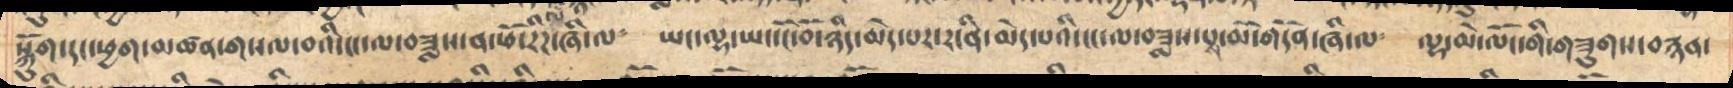སྐོུག་དང་ཕྱག་མཚན་གསལ་བའི་ངང་ལ་བཟླས་ན་ཕོ་རིཌ་ཞི་ལ༴   ཡང་ལྷ་ཡང་ངོ་བོ་ཉིད་མེད་པར་རངིན་མེད་པའི་ངང་ལ་བཟླས་པས་མོ་གདོན་ཞི་ལ༴   ལྷ་མེད་ལོང་གི་གཟུགས་བསྙན་
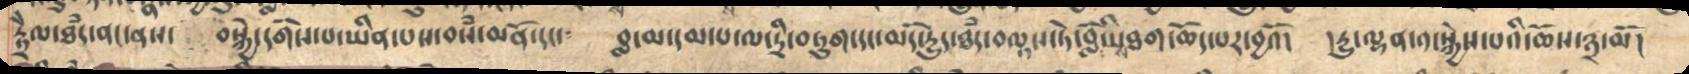རྟྲེལ་ཐཾད་ནང་ནས་   བསྐྱེ་དགོས་པ་ཡིན་པས་བསཾ་མནོ་དང༴   བླ་མ་དམ་པ་ལ་དྲི་བཏུག་དང་མདོ་དྱུད་ཐཾད་བལྟས་ཏེ་བློའིས་ཐག་ཆོད་པར་བྱའོ།   །དྱུ་ལྷན་༡་སྐྱེས་པའི་ཆོས་༣་མོ།
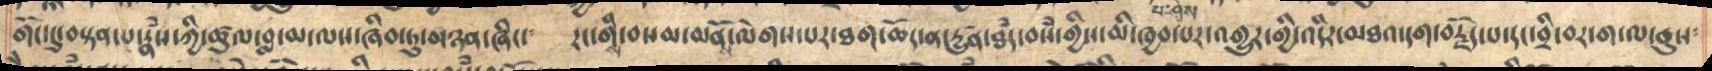གོང་དུ་བསྟན་པ་རྣཾས་ཀྱི་ཚུལ་བླ་མ་ལས་ཞིབ་ཏུ་མཉན་ཞིང་  རང་གིས་བསམ་མནོ་ལེགས་པར་ཐག་ཆོད་ན་དྱུན་ཐཾད་བསཾ་གྱིས་མི་ཁྱབ་པར་འགྱུར་གི་འདིར་མཐའ་དག་བརྗོད་པ་དང་བྲི་བར་ག་ལ་ནུས༴
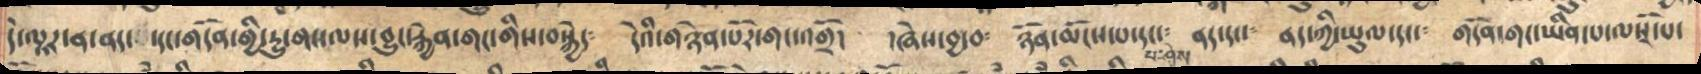དེ་ལྟར་ན་ནད་པ་དང་གདོན་གྱི་དྱུ་གསལས་བྱུང་རྐྱེན་གང་གིས་བསྐྱེད༴   དེའི་གཉེན་པོར་གང་འགྲོ།   །ཞེས་བྱ༴   ཉོན་མོངས་པ་དང་༴   ནད་དང་  ནད་ཀྱི་ཡུལ་དང་  གདོན་གང་ཡིན་པ་ལསྭོ་པ་
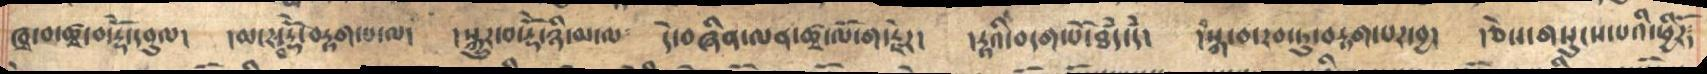ཁྭ་བ་ཚྭ་བ་རྡོེ་དབུལ། །མངར་རྡོེ་བརྟག་པ་ལ། །སྐྱུར་བ་རྡོེ་ཉི་མ་ལ༴ དེ་བཞིན་ལན་ཚྭ་ལོ་ག་རྗེར། །རྟའི་བདག་པོ་ཐཾད་དཾ། །སྒ་བ་རབ་ཏུ་བརྟག་པར་བྱ། །ཅེས་གསུངས་པའི་ཕྱིརོ༴
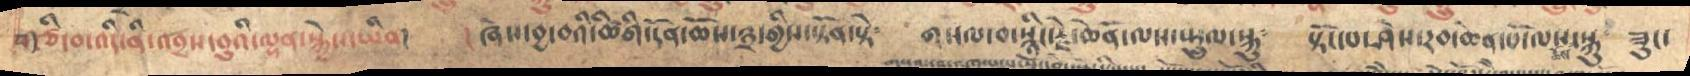གཙི་བ་འདི་ནི་འབྲས་བུའི་ལྷན་སྐྱེས་ཡིན།  །ཞེས་བྱ་བའི་ཚིགི་དོན་ཆོས་༣་གྱིས་སྟོན་སྟེ   གསལ་བ་སྙིང་རྗེ་ཆེནོ་ལས་སྤྲུལ་སྐུ   སྟོང་པ་ཤེས་རབ་ཆེན་པོ་ལས་ཆོས་སྐུ  ཟུང་
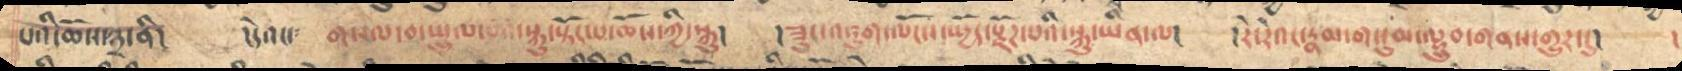པའི་ཆོས་༣་ནི། །དེའང་༴ གསལ་བ་སྤྲུལ་པའི་སྐུ་སྟོང་པ་ཆོས་ཀྱི་སྐུ། །ཟུང་འཇུག་ལོངས་སྤྱོད་སྫོཌ་པའི་སྐུ་ཡིན་ལ། །རེ་རེའང་རྣམ་གསུམ་ལྷྲུབ་གནས་གྱུར་དུ། །
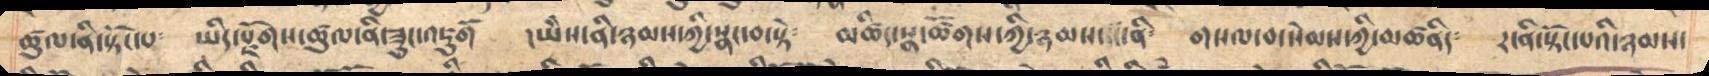ཚུལ་ནི་སྟོང་པ ཡིད་སྫོགས་ཚུལ་ནི་ཟུང་འཇུགོ །ཡཻས་ནི་ཉམས་ཀྱི་སྣང་བ་སྟེ༴ མཚིད་སྣ་ཚོགས་ཀྱི་ཉམས་དང་ནི༴ གསལ་བ་སེམས་ཀྱི་མཚནི།༴ ར་ནི་སྟོང་པའི་ཉམས་
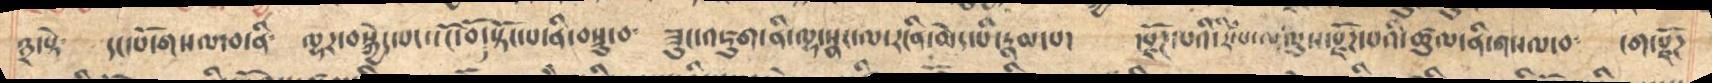༣་སྟེ༴ དང་པོ་གསལ་བ་ནི༴ ལྷར་བསྐྱེད་པ་ངོ་བོ་སྟོང་པ་ནི་བསྡུ་བ༴ ཟུང་འཇུག་ནི་ལྷ་སྣང་ལ་རངནི་མེད་པའི་རྣམ་པ། །སྫོཌ་པའི་རིཾ་པ་ལ་ལུས་སྫོཌ་པའི་ཚུལ་ནི་གསལ་བ༴ །ག་སྫོཌ
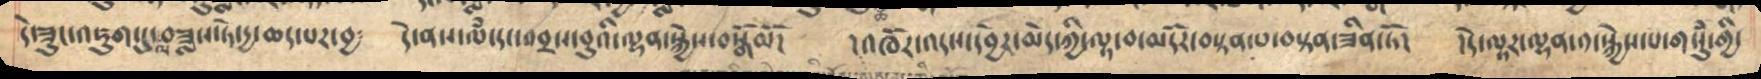དེ་ཟུང་འཇུག་དུ་ལ་བཟླས་ཏེ་དྱ་ཆད་པར་བྱ༴   དེ་ནས་ལཾ་དང་འབྲས་བུའི་ལྷན་སྐྱེས་བསྒོམོ།   །འཁོར་འདས་དབྱེར་མེད་ཀྱི་ལྟ་བ་མདོར་བསྟན་པ་བསྟན་ཟིན་ཏོ།   །དེ་ལྟར་ལྷན་༡་སྐྱེས་པ་གསུཾ་གྱི་
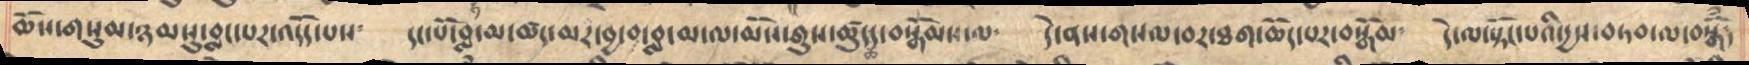ཆོས་གསུམ་ཉམསུ་བླང་པར་འདོད་པས༴   དང་པོ་བླ་མ་ཚད་མར་བྱ་བ་བླ་་ལ་མོས་གུས་ཚུདཆད་བསྒོམས་ལ༴   དེ་ནས་གསལ་བར་ཐག་ཆོད་པར་བསྒོམ༴   དེ་ལ་སྟོང་པའི་དྱས་བཏབ་ལ་བསྒོཾ༴
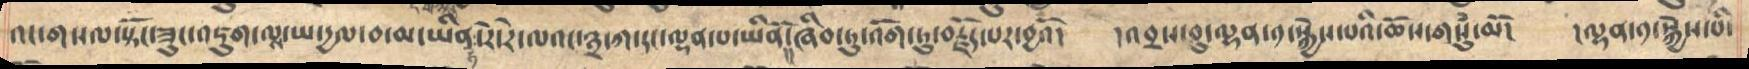འང་གསལ་སྟོང་ཟུང་འཇུག་ལས་ཡ་དྱལ་བ་མ་ཡན་ཏེ་རེ་རེ་ལའང་༣་ཀ་དང་ལྡན་པ་ཡིནོ།།  ཞིབ་ཏུ་འོག་ཏུ་བརྗོད་པར་བྱའོ།   །འབྲས་བུ་ལྷན་༡་སྐྱེས་པའི་ཆོས་གསུཾ་མོ།   །ལྷན་༡་སྐྱེས་པི་
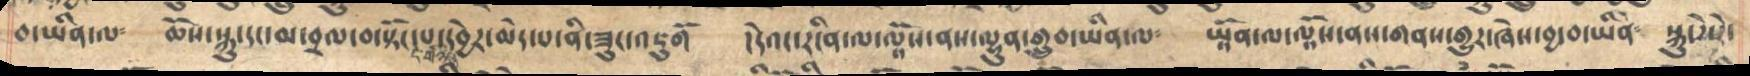བ་ཡིན་ལ༴  ཆོས་སྐུ་དང་མ་བྲལ་བ་སྟོང་པ་དེ་གཉིས་དབྱེར་མེད་པ་ནི་ཟུང་འཇུགོ     །དེའང་རངིན་ལ་ལྟོས་ནས་ལྷུན་གྲུབ་ཡིན་ལ༴  ཡྟོན་ལ་ལྟོས་ནས་གནས་གྱུར་ཞེས་བྱ་བ་ཡིན༴  སྐུ་རེ་རེ་
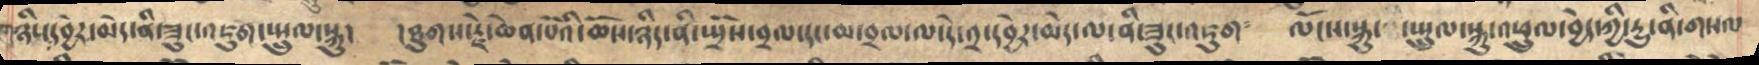གཉིས་དབྱེར་མེད་ནི་ཟུང་འཇུག་སྤྲུལ་སྐུ། །ཐུགས་རྗེ་ཆེན་པོའི་ཆོས་ཉིད་ནི་སྤྲོས་བྲལ་དང་མ་བྲལ་ལ་དེ་༢་དབྱེར་མེད་ལ་ནི་ཟུང་འཇུག༴ ལོངས་སྐུ་ ་སྤྲུལ་སྐུ་འཕྲུལ་བྱེད་ཀྱི་རྱུ་ནི་གསལ
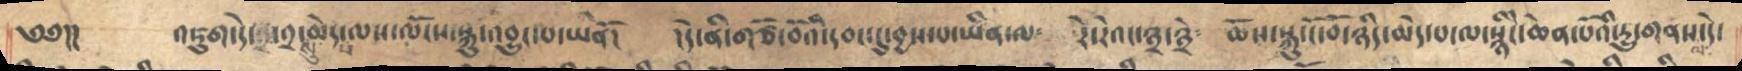༄༅།།   འཇུག་དེ་༢་སུ་མེད་པ་ལས་ལོངས་སྐུ་འབྱུང་པ་ཡིནོ།   །དེ་ནི་གཙོ་བོའི་དབང་དུ་བྱས་པ་ཡིན་ལ༴   རེ་རེའང་༣་༣ེ༴  ཆོས་སྐུ་ངོ་བོ་ཉིད་མེད་པ་ལ་སྙིངེ་ཆེན་པོའི་དྱུ་གནས་ལ་དེ་
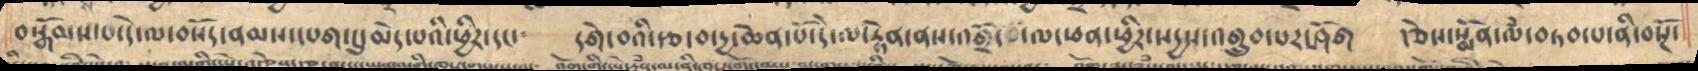བསྒོམས་པ་དེ་ལ་བསོད་ནམས་དཔག་དུ་མེད་པའི་ཕྱིར་དང་    དགེ་བའི་རྩ་བ་དྱ་ཆེན་པོ་དེ་ལ་རྟེན་ནས་འགྲོ་བ་ལ་ཕན་ཕྱིར་སདྱས་འགྲུབ་པར་ཤོག   །ཅེས་སྨོན་ལཾ་བཏབ་པ་ནི་བསྔོ་
